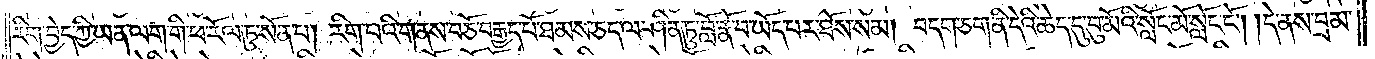རིག་བྱེད་ཀྱི་ཡན་ལག་གི་ཕ་རོལ་ཏུ་སོན་པ། རིག་པའི་གནས་བཅོ་བརྒྱད་པོ་ཐམས་ཅད་ལ་ཤིན་ཏུ་བློ་རྣོ་བ་ཡོད་པར་ཐོས་སམ། བདག་ཅག་ནི་དེའི་ཆེད་དུ་བུ་མོའི་སློང་མོ་སློང་ངོ༌། །དེ་ནས་བྲམ་
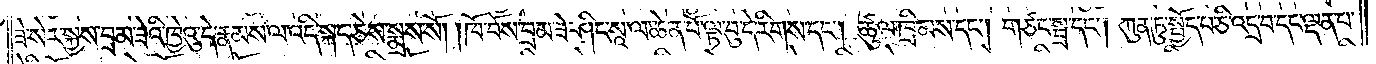ཟེ་སེར་སྐྱས་བྲམ་ཟེའི་ཁྱེའུ་དེ་རྣམས་ལ་འདི་སྐད་ཅེས་སྨྲས་སོ། །ཁོ་བོས་བྲམ་ཟེ་ཤིང་སཱ་ལ་ཆེན་པོ་ལྟ་བུ་དེ་རིགས་དང༌། ཚུལ་ཁྲིམས་དང༌། གཙང་སྦྲ་དང༌། ཀུན་ཏུ་སྤྱོད་པ་ཅི་འདྲ་བ་དང་ལྡན་པ་
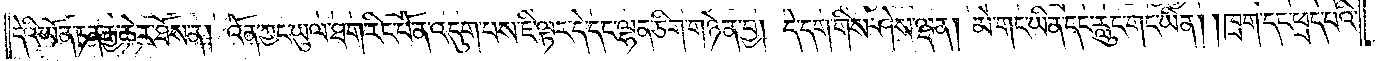དེའི་ཡོན་ཏན་རྒྱ་ཆེར་ཐོས་ན། འོན་ཀྱང་ཡུལ་ཐག་རིང་པོ་ན་འདུག་པས་ཇི་ལྟར་དེ་དང་ལྷན་ཅིག་གཉེན་བྱ། དེ་དག་གིས་ཤེས་ལྡན། མེ་གང་ཡིན་དང་རླུང་གང་ཡིན། །ཁྲག་དང་ཕྲད་པའི་
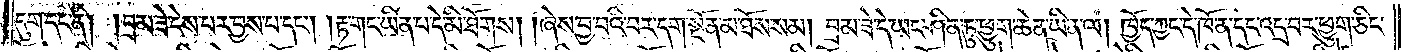དུག་དང་ནི། བྲམ་ཟེ་ངེས་པར་བྱས་པ་དང༌། །རྟ་གང་ཡིན་པ་དེ་མི་ཐོགས། །ཞེས་བྱ་བའི་བར་དག་སྔོན་མ་ཐོས་སམ། བྲམ་ཟེ་དེ་ཡང་ཤིན་ཏུ་ཕྱུག་ཆེན་ཡིན་ལ། ཁྱོད་ཀྱང་དེ་ཁོ་ན་དང་འདྲ་བར་ཕྱུག་ཅིང་
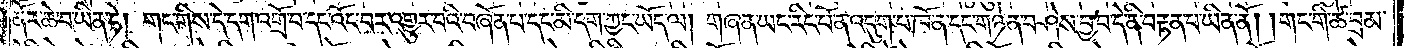ནོར་ཆེ་བ་ཡིན་ཏེ། གང་གིས་དེ་དག་འགྲོ་བ་དང་འོང་བར་འགྱུར་བའི་བཞོན་པ་དང་མི་དག་ཀྱང་ཡོད་ལ། གཞན་ཡང་རིང་པོ་ན་འདུག་པ་ཁོ་ན་དང་གཉེན་བཤེས་བྱ་བ་དེ་ནི་བརྟན་པ་ཡིན་ནོ། །གང་གི་ཚེ་བྲམ་
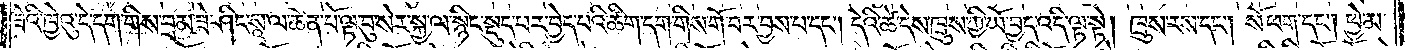ཟེའི་ཁྱེའུ་དེ་དག་གིས་བྲམ་ཟེ་ཤིང་སཱ་ལ་ཆེན་པོ་ལྟ་བུ་སེར་སྐྱ་ལ་སྙིང་སྡུད་པར་བྱེད་པའི་ཚིག་དག་གིས་གོ་བར་བྱས་པ་དང༌། དེའི་ཚེ་དེས་ཁྲུས་ཀྱི་ཡོ་བྱད་འདི་ལྟ་སྟེ། ཁྲུས་རས་དང༌། སོ་ཕག་དང༌། ཕྱེ་མ་
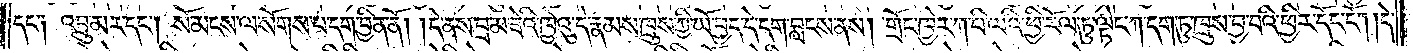དང༌༑ འབྲུ་མར་དང༌། སོ་མངས་ལ་སོགས་པ་དག་བྱིན་ནོ། །དེ་ནས་བྲམ་ཟེའི་ཁྱེའུ་དེ་རྣམས་ཁྲུས་ཀྱི་ཡོ་བྱད་དེ་དག་བླངས་ནས། གྲོང་ཁྱེར་ཀ་པི་ལའི་ཕྱི་རོལ་ཏུ་ལྟེང་ཀ་དག་ཏུ་ཁྲུས་བྱ་བའི་ཕྱིར་དོང་ངོ༌། །དེ་
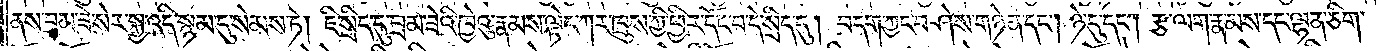ནས་བྲམ་ཟེ་སེར་སྐྱ་འདི་སྙམ་དུ་སེམས་ཏེ། ཇི་སྲིད་དུ་བྲམ་ཟེའི་ཁྱེའུ་རྣམས་ལྟེང་ཀར་ཁྲུས་ཀྱི་ཕྱིར་དོང་བ་དེ་སྲིད་དུ། བདག་ཀྱང་བཤེས་གཉེན་དང༌། ཉེ་དུ་དང༌། རྩ་ལག་རྣམས་དང་ལྷན་ཅིག་
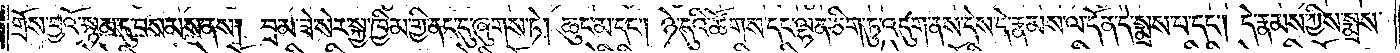གྲོས་བྱའོ་སྙམ་དུ་བསམས་ནས། བྲམ་ཟེ་སེར་སྐྱ་ཁྱིམ་གྱི་ནང་དུ་ཞུགས་ཏེ། ཆུང་མ་དང༌། ཉེ་དུའི་ཚོགས་དང་ལྷན་ཅིག་ཏུ་འདུག་ནས་དེས་དེ་རྣམས་ལ་དོན་དེ་སྨྲས་པ་དང༌། དེ་རྣམས་ཀྱིས་སྨྲས་
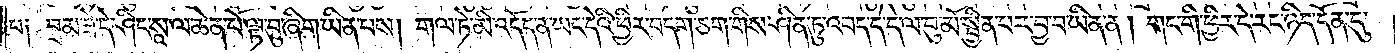པ༑ བྲམ་ཟེ་དེ་ཤིང་སཱ་ལ་ཆེན་པོ་ལྟ་བུ་ཞིག་ཡིན་པས། གལ་ཏེ་མི་འདོད་ན་ཡང་དེའི་ཕྱིར་བདག་ཅག་གིས་ཤིན་ཏུ་འབད་དེ་དེ་ལ་བུ་མོ་སྦྱིན་པར་བྱ་བ་ཡིན་ན། གང་གི་ཕྱིར་དེ་རང་ཉིད་དོན་དུ་
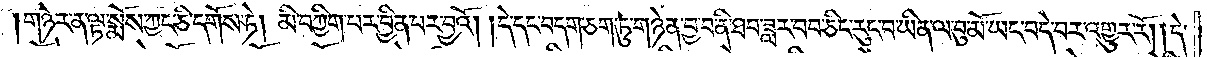གཉེར་ན་ལྟ་སྨོས་ཀྱང་ཅི་དགོས་ཏེ། མི་བཀྱིག་པར་བྱིན་པར་བྱའོ། །དེ་དང་བདག་ཅག་ཏུ་གཉེན་བྱ་བ་ནི་ཐབ་ཟླར་བབ་ཅིང་རུང་བ་ཡིན་ལ་བུ་མོ་ཡང་བདེ་བར་འགྱུར་རོ། །དེ་
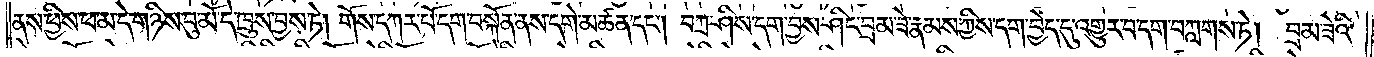ནས་ཕྱིས་ཕ་མ་དེ་གཉིས་བུ་མོ་དེ་ཁྲུས་བྱས་ཏེ། གོས་དཀར་པོ་དག་བསྐོན་ནས་དགེ་མཚན་དང༌། བཀྲ་ཤིས་དག་བྱས་ཤིང་བྲམ་ཟེ་རྣམས་ཀྱིས་བདག་བྱེད་དུ་འགྱུར་བ་དག་བཀླགས་ཏེ། བྲམ་ཟེའི་
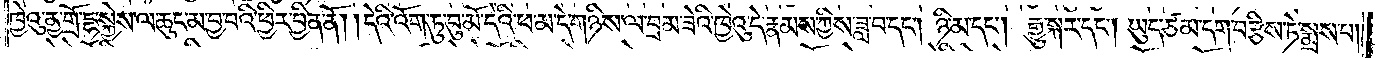ཁྱེའུ་ནྱ་གྲོ་དྷ་སྐྱེས་ལ་ཆུང་མ་བྱ་བའི་ཕྱིར་བྱིན་ནོ། །དེའི་འོག་ཏུ་བུ་མོ་དེའི་ཕ་མ་དེ་གཉིས་ལ་བྲམ་ཟེའི་ཁྱེའུ་དེ་རྣམས་ཀྱིས་ཟླ་བ་དང༌། ཉི་མ་དང༌། རྒྱུ་སྐར་དང༌། ཡུད་ཙམ་དག་བརྩིས་ཏེ་སྨྲས་པ།
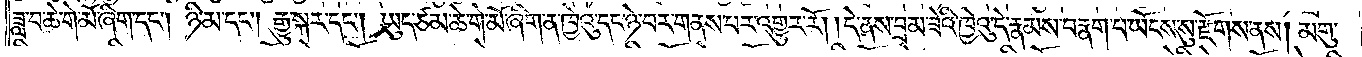ཟླ་བ་ཆེ་གེ་མོ་ཞིག་དང༌། ཉི་མ་དང༌། རྒྱུ་སྐར་དང༌། ཡུད་ཙམ་ཆེ་གེ་མོ་ཞིག་ན་ཁྱེའུ་དང་ཉེ་བར་གནས་པར་འགྱུར་རོ། །དེ་ནས་བྲམ་ཟེའི་ཁྱེའུ་དེ་རྣམས་བརྣག་པ་ཡོངས་སུ་རྫོགས་ནས། མགུ་
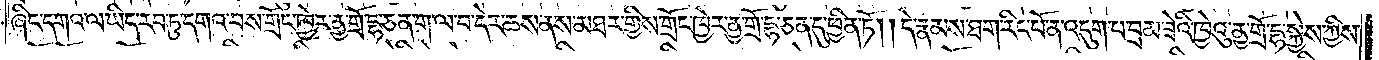ཞིང་དགའ་ལ་ཡིད་རབ་ཏུ་དགའ་བས་གྲོང་ཁྱེར་ནྱ་གྲོ་དྷ་ཅན་ག་ལ་བ་དེར་ཆས་ནས་མཐར་གྱིས་གྲོང་ཁྱེར་ནྱ་གྲོ་དྷ་ཅན་དུ་ཕྱིན་ཏོ། །དེ་རྣམས་ཐག་རིང་པོ་ན་འདུག་པ་བྲམ་ཟེའི་ཁྱེའུ་ནྱ་གྲོ་དྷ་སྐྱེས་ཀྱིས་
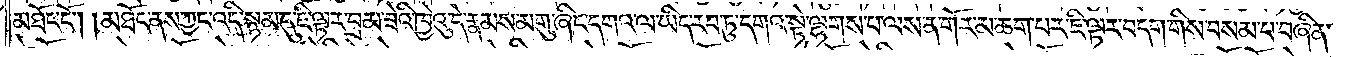མཐོང་ངོ༌། །མཐོང་ནས་ཀྱང་འདི་སྙམ་དུ་ཇི་ལྟར་བྲམ་ཟེའི་ཁྱེའུ་དེ་རྣམས་མགུ་ཞིང་དགའ་ལ་ཡིད་རབ་ཏུ་དགའ་སྟེ་ལྷགས་པ་ལས་ན་གོར་མ་ཆག་པར་ཇི་ལྟར་བདག་གིས་བསམ་པ་བཞིན་
